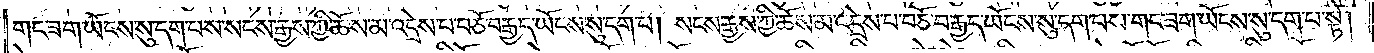གང་ཟག་ཡོངས་སུ་དག་པས་སངས་རྒྱས་ཀྱི་ཆོས་མ་འདྲེས་པ་བཅོ་བརྒྱད་ཡོངས་སུ་དག་པ། སངས་རྒྱས་ཀྱི་ཆོས་མ་འདྲེས་པ་བཅོ་བརྒྱད་ཡོངས་སུ་དག་པས་གང་ཟག་ཡོངས་སུ་དག་པ་སྟེ།
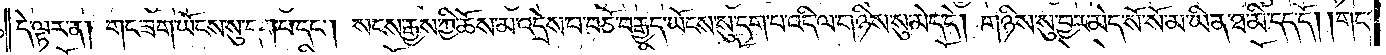དེ་ལྟར་ན། གང་ཟག་ཡོངས་སུ་དག་པ་དང༌། སངས་རྒྱས་ཀྱི་ཆོས་མ་འདྲེས་པ་བཅོ་བརྒྱད་ཡོངས་སུ་དག་པ་འདི་ལ་གཉིས་སུ་མེད་དེ། གཉིས་སུ་བྱར་མེད་སོ་སོ་མ་ཡིན་ཐ་མི་དད་དོ། །གང་
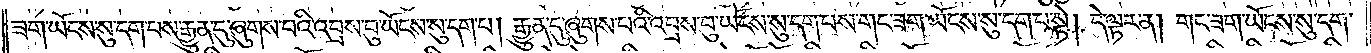ཟག་ཡོངས་སུ་དག་པས་རྒྱུན་དུ་ཞུགས་པའི་འབྲས་བུ་ཡོངས་སུ་དག་པ། རྒྱུན་དུ་ཞུགས་པའི་འབྲས་བུ་ཡོངས་སུ་དག་པས་གང་ཟག་ཡོངས་སུ་དག་པ་སྟེ། དེ་ལྟར་ན། གང་ཟག་ཡོངས་སུ་དག་
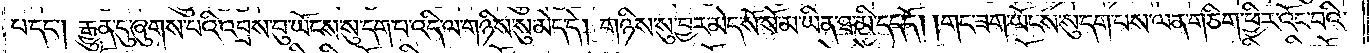པ་དང༌། རྒྱུན་དུ་ཞུགས་པའི་འབྲས་བུ་ཡོངས་སུ་དག་པ་འདི་ལ་གཉིས་སུ་མེད་དེ། གཉིས་སུ་བྱར་མེད་སོ་སོ་མ་ཡིན་ཐ་མི་དད་དོ། །གང་ཟག་ཡོངས་སུ་དག་པས་ལན་ཅིག་ཕྱིར་འོང་བའི་
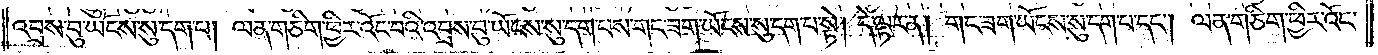འབྲས་བུ་ཡོངས་སུ་དག་པ། ལན་ཅིག་ཕྱིར་འོང་བའི་འབྲས་བུ་ཡོངས་སུ་དག་པས་གང་ཟག་ཡོངས་སུ་དག་པ་སྟེ། དེ་ལྟར་ན། གང་ཟག་ཡོངས་སུ་དག་པ་དང༌། ལན་ཅིག་ཕྱིར་འོང་
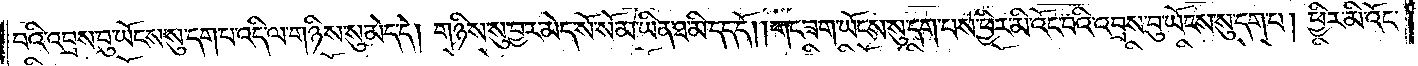བའི་འབྲས་བུ་ཡོངས་སུ་དག་པ་འདི་ལ་གཉིས་སུ་མེད་དེ། གཉིས་སུ་བྱར་མེད་སོ་སོ་མ་ཡིན་ཐ་མི་དད་དོ། །གང་ཟག་ཡོངས་སུ་དག་པས་ཕྱིར་མི་འོང་བའི་འབྲས་བུ་ཡོངས་སུ་དག་པ། ཕྱིར་མི་འོང་
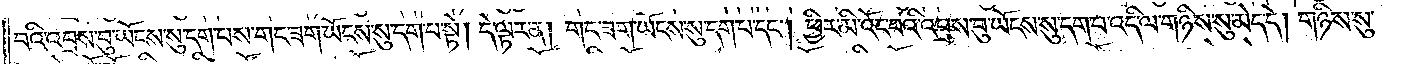བའི་འབྲས་བུ་ཡོངས་སུ་དག་པས་གང་ཟག་ཡོངས་སུ་དག་པ་སྟེ། དེ་ལྟར་ན། གང་ཟག་ཡོངས་སུ་དག་པ་དང༌། ཕྱིར་མི་འོང་བའི་འབྲས་བུ་ཡོངས་སུ་དག་པ་འདི་ལ་གཉིས་སུ་མེད་དེ། གཉིས་སུ་
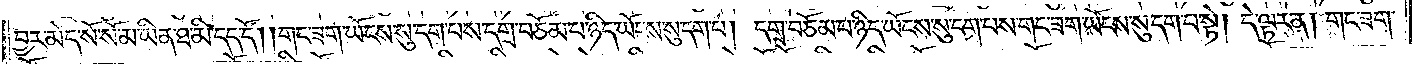བྱར་མེད་སོ་སོ་མ་ཡིན་ཐ་མི་དད་དོ། །གང་ཟག་ཡོངས་སུ་དག་པས་དགྲ་བཅོམ་པ་ཉིད་ཡོངས་སུ་དག་པ། དགྲ་བཅོམ་པ་ཉིད་ཡོངས་སུ་དག་པས་གང་ཟག་ཡོངས་སུ་དག་པ་སྟེ། དེ་ལྟར་ན། གང་ཟག་
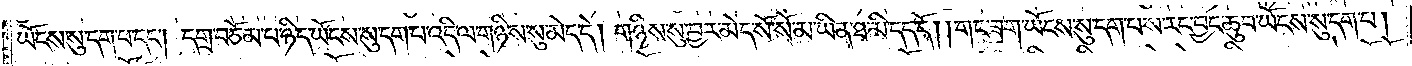ཡོངས་སུ་དག་པ་དང༌། དགྲ་བཅོམ་པ་ཉིད་ཡོངས་སུ་དག་པ་འདི་ལ་གཉིས་སུ་མེད་དེ། གཉིས་སུ་བྱར་མེད་སོ་སོ་མ་ཡིན་ཐ་མི་དད་དོ། །གང་ཟག་ཡོངས་སུ་དག་པས་རང་བྱང་ཆུབ་ཡོངས་སུ་དག་པ།
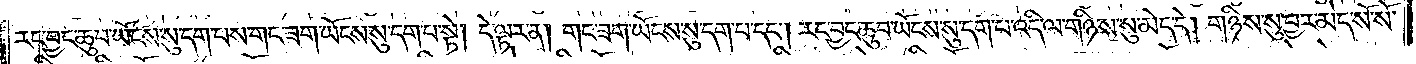རང་བྱང་ཆུབ་ཡོངས་སུ་དག་པས་གང་ཟག་ཡོངས་སུ་དག་པ་སྟེ། དེ་ལྟར་ན། གང་ཟག་ཡོངས་སུ་དག་པ་དང༌། རང་བྱང་ཆུབ་ཡོངས་སུ་དག་པ་འདི་ལ་གཉིས་སུ་མེད་དེ། གཉིས་སུ་བྱར་མེད་སོ་སོ་
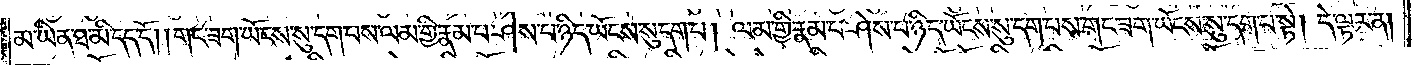མ་ཡིན་ཐ་མི་དད་དོ། །གང་ཟག་ཡོངས་སུ་དག་པས་ལམ་གྱི་རྣམ་པར་ཤེས་པ་ཉིད་ཡོངས་སུ་དག་པ། ལམ་གྱི་རྣམ་པར་ཤེས་པ་ཉིད་ཡོངས་སུ་དག་པས་གང་ཟག་ཡོངས་སུ་དག་པ་སྟེ། དེ་ལྟར་ན།
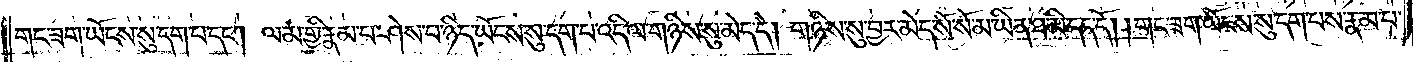གང་ཟག་ཡོངས་སུ་དག་པ་དང༌། ལམ་གྱི་རྣམ་པར་ཤེས་པ་ཉིད་ཡོངས་སུ་དག་པ་འདི་ལ་གཉིས་སུ་མེད་དེ། གཉིས་སུ་བྱར་མེད་སོ་སོ་མ་ཡིན་ཐ་མི་དད་དོ། །གང་ཟག་ཡོངས་སུ་དག་པས་རྣམ་པར་
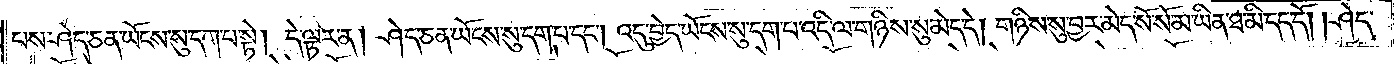པས་ཤེད་ཅན་ཡོངས་སུ་དག་པ་སྟེ། དེ་ལྟར་ན། ཤེད་ཅན་ཡོངས་སུ་དག་པ་དང༌། འདུ་བྱེད་ཡོངས་སུ་དག་པ་འདི་ལ་གཉིས་སུ་མེད་དེ། གཉིས་སུ་བྱར་མེད་སོ་སོ་མ་ཡིན་ཐ་མི་དད་དོ། །ཤེད་
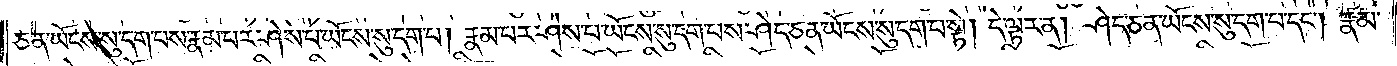ཅན་ཡོངས་སུ་དག་པས་རྣམ་པར་ཤེས་པ་ཡོངས་སུ་དག་པ། རྣམ་པར་ཤེས་པ་ཡོངས་སུ་དག་པས་ཤེད་ཅན་ཡོངས་སུ་དག་པ་སྟེ། དེ་ལྟར་ན། ཤེད་ཅན་ཡོངས་སུ་དག་པ་དང༌། རྣམ་
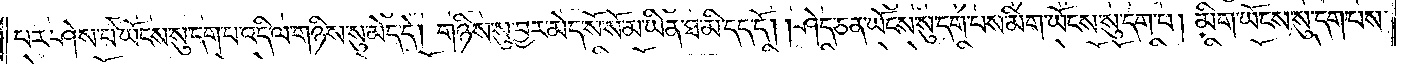པར་ཤེས་པ་ཡོངས་སུ་དག་པ་འདི་ལ་གཉིས་སུ་མེད་དེ། གཉིས་སུ་བྱར་མེད་སོ་སོ་མ་ཡིན་ཐ་མི་དད་དོ། །ཤེད་ཅན་ཡོངས་སུ་དག་པས་མིག་ཡོངས་སུ་དག་པ། མིག་ཡོངས་སུ་དག་པས་
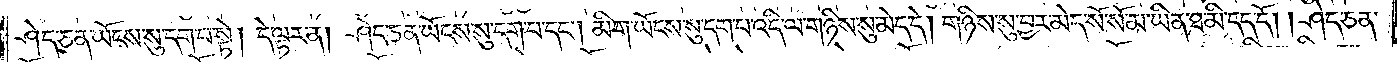ཤེད་ཅན་ཡོངས་སུ་དག་པ་སྟེ། དེ་ལྟར་ན། ཤེད་ཅན་ཡོངས་སུ་དག་པ་དང༌། མིག་ཡོངས་སུ་དག་པ་འདི་ལ་གཉིས་སུ་མེད་དེ། གཉིས་སུ་བྱར་མེད་སོ་སོ་མ་ཡིན་ཐ་མི་དད་དོ། །ཤེད་ཅན་
